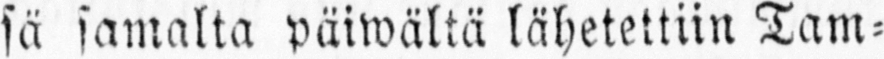sä samalta päiwältä lähetettiin Tam-
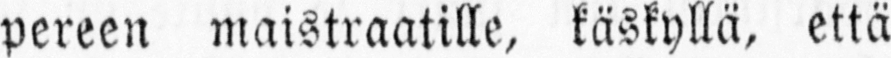pereen maistraatille, käskyllä, että
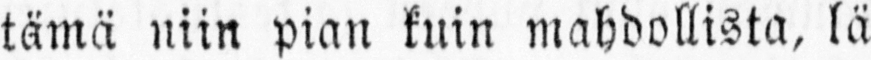tämä niin pian kuin mahdollista, lä-
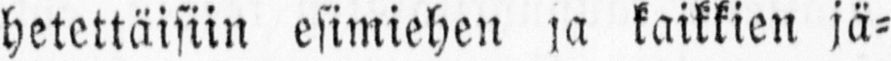hetettäisiin esimiehen ja kaikkien jä-
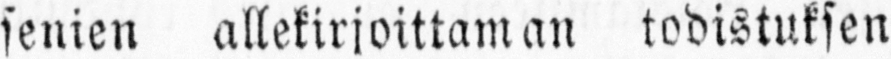senien allekirjoittaman todistuksen
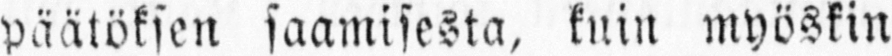päätöksen saamisesta, kuin myöskin
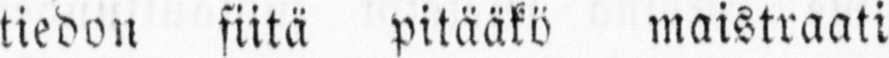tiedon siitä pitääkö maistraati
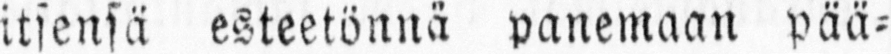itsensä esteetönnä panemaan pää-
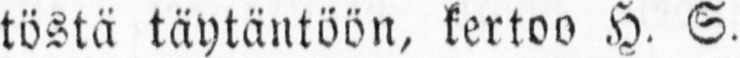töstä täytäntöön, kertoo H. S.
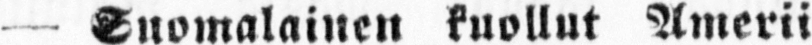— Suomalainen kuollut Amerii-
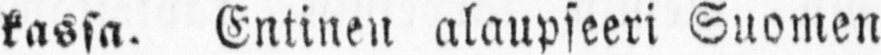kassa. Entinen alaupseeri Suomen
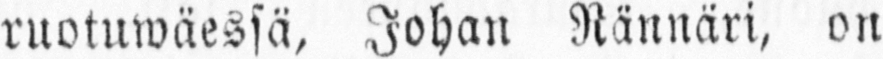ruotuwäessä, Johan Rännäri, on
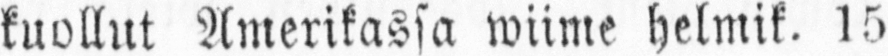kuollut Amerikassa wiime helmik. 15
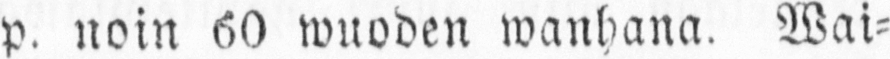p. noin 60 wuoden wanhana. Wai-
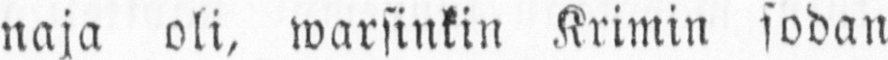naja oli, warsinkin Krimin sodan
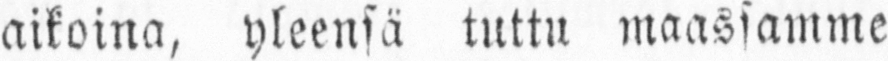aikoina, yleensä tuttu maassamme
